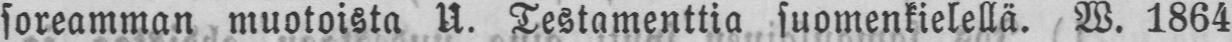soreamman muotoista U. Testamenttia suomenkielellä. W. 1864
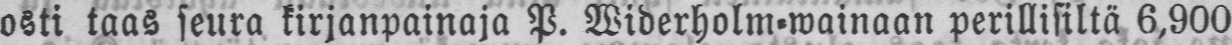osti taas seura kirjanpainaja P. Widerholm-wainaan perillisiltä 6,900
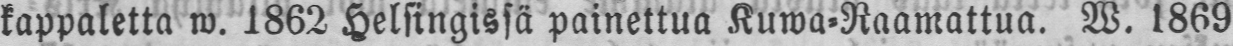kappaletta w. 1862 Helsingissä painettua Kuwa-Raamattua. W. 1869
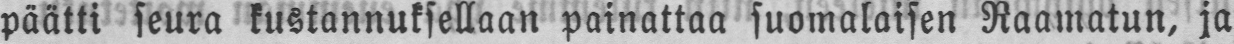päätti seura kustannuksellaan painattaa suomalaisen Raamatun, ja
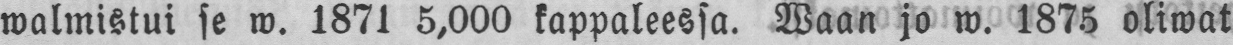walmistui se w. 1871 5,000 kappaleessa. Waan jo w. 1875 oliwat
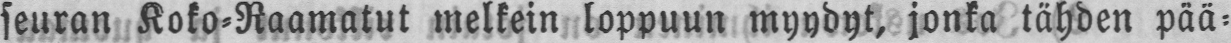seuran Koko-Raamatut melkein loppuun myydyt, jonka tähden pää-
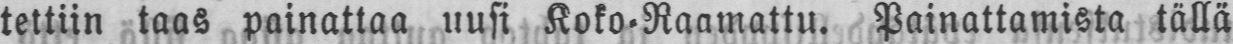tettiin taas painattaa uusi Koko-Raamattu. Painattamista tällä
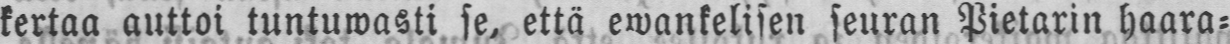kertaa auttoi tuntuwasti se, että ewankelisen seuran Pietarin haara-
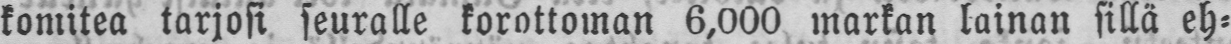komitea tarjosi seuralle korottoman 6,000 markan lainan sillä eh-
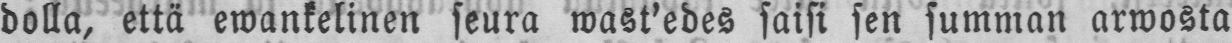dolla, että ewankelinen seura wast'edes saisi sen summan arwosta
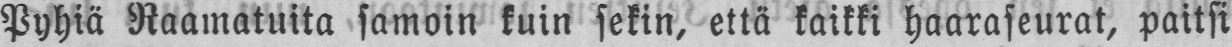Pyhiä Raamatuita samoin kuin sekin, että kaikki haaraseurat, paitsi
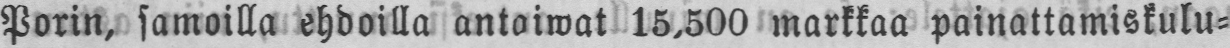Porin, samoilla ehdoilla antoiwat 15,500 markkaa painattamiskulu-
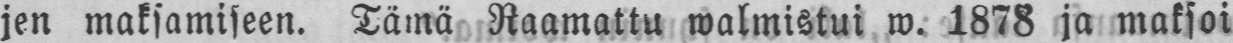jen maksamiseen. Tämä Raamattu walmistui w. 1878 ja maksoi
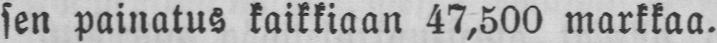sen painatus kaikkiaan 47,500 markkaa.
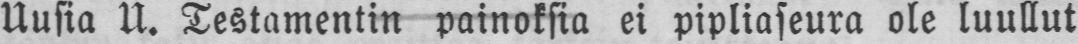Uusia U. Testamentin painoksia ei pipliaseura ole luullut
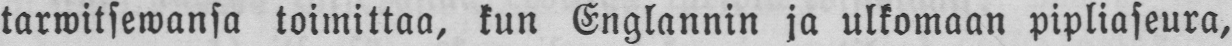tarwitsewansa toimittaa, kun Englannin ja ulkomaan pipliaseura,
